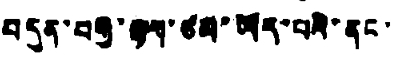བདུན་བརྒྱ་ལྷག་ཙམ་ཡོད་པའི་ནང་
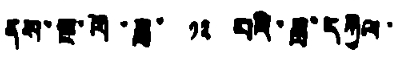ནས་སྔ་ལོ་ཟླ་ ༡༢ པའི་ཟླ་དཀྱིལ་
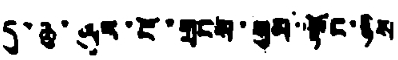དུ་ཆུ་ཡུར་ངོ་གྲངས་སུམ་སྟོང་ཉིས
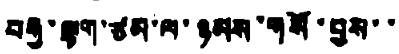བརྒྱ་ལྷག་ཙམ་ལ་ཉམས་གསོ་བྱས་་
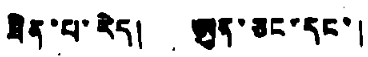ཟིན་པ་རེད། ཨུན་ཅང་དང་།
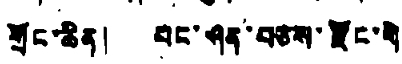གྲོང་ཆིན། བང་ཤན་བཅས་རྫོང་གི
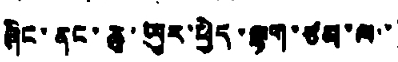ཞིང་ནང་ཆུ་ཡུར་ཕྱེད་ལྷག་ཙམ་ལ་་
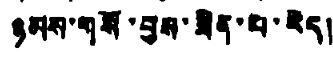ཉམས་གསོ་བྱས་ཟིན་པ་རེད།
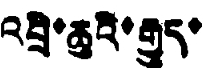འབྲི་ཆུའི་རྒྱུད་
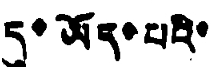དུ་ཡོད་པའི་
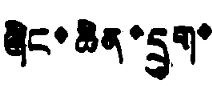ཞིང་ཆེན་དྲུག་
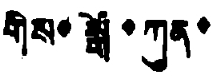གིས་སྒོ་ཀུན་
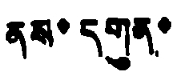ནས་དགུན་
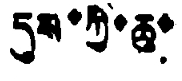དུས་ཀྱི་ཆུ་
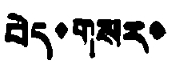བེད་གསར་
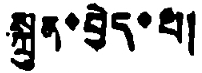སྐྲུན་བྱེད་པ།
